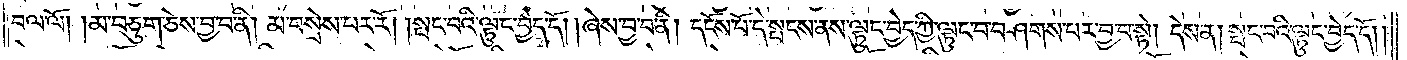བལ་ལོ། །མ་བཅུག་ཅེས་བྱ་བ་ནི། མ་བསྲེས་པར་རོ། །སྤང་བའི་ལྟུང་བྱེད་དོ། །ཞེས་བྱ་བ་ནི། དངོས་པོ་དེ་སྤངས་ནས་ལྟུང་བྱེད་ཀྱི་ལྟུང་བ་བཤགས་པར་བྱ་བ་སྟེ། དེས་ན། སྤང་བའི་ལྟུང་བྱེད་དོ། །
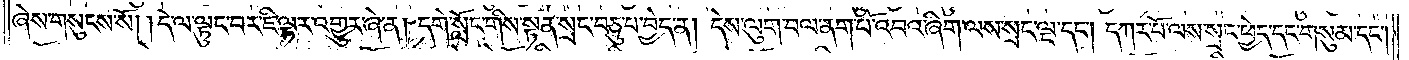ཞེས་གསུངས་སོ། །དེ་ལ་ལྟུང་བར་ཇི་ལྟར་འགྱུར་ཞེ་ན། དགེ་སློང་གིས་སྟན་སྲང་བཅུ་པ་བྱེད་ན། དེས་ལུག་བལ་ནག་པོ་འབའ་ཞིག་ལས་སྲང་ལྔ་དང༌། དཀར་པོ་ལས་སྲང་ཕྱེད་དང་གསུམ་དང༌།
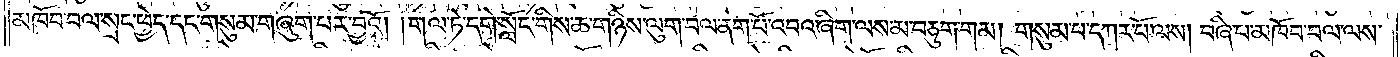མཁོ་བ་བལ་སྲང་ཕྱེད་དང་གསུམ་གཞུག་པར་བྱའོ། །གལ་ཏེ་དགེ་སློང་གིས་ཆ་གཉིས་ལུག་བལ་ནག་པོ་འབའ་ཞིག་ལས་མ་བཅུག་གམ། གསུམ་པ་དཀར་པོ་ལས། བཞི་པ་མཁོ་བ་བལ་ལས་
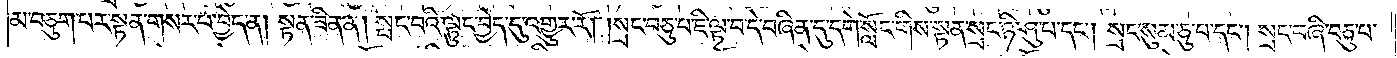མ་བཅུག་པར་སྟན་གསར་པ་བྱེད་ན། སྟན་ཟིན་ན། སྤང་བའི་ལྟུང་བྱེད་དུ་འགྱུར་རོ། །སྲང་བཅུ་པ་ཇི་ལྟ་བ་དེ་བཞིན་དུ་དགེ་སློང་གིས་སྟན་སྲང་ཉི་ཤུ་པ་དང༌། སྲང་སུམ་ཅུ་པ་དང༌། སྲང་བཞི་བཅུ་པ་
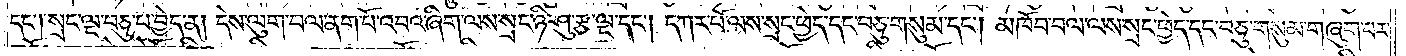དང༌། སྲང་ལྔ་བཅུ་པ་བྱེད་ན། དེས་ལུག་བལ་ནག་པོ་འབའ་ཞིག་ལས་སྲང་ཉི་ཤུ་རྩ་ལྔ་དང༌། དཀར་པོ་ལས་སྲང་ཕྱེད་དང་བཅུ་གསུམ་དང༌། མཁོ་བ་བལ་ལས་སྲང་ཕྱེད་དང་བཅུ་གསུམ་གཞུག་པར་
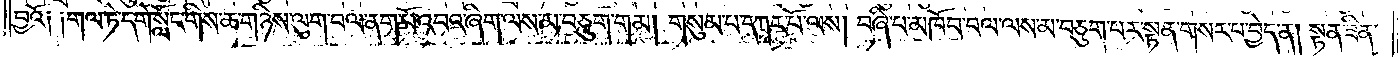བྱའོ༑ ༑གལ་ཏེ་དགེ་སློང་གིས་ཆ་གཉིས་ལུག་བལ་ནག་པོ་འབའ་ཞིག་ལས་མ་བཅུག་གམ། གསུམ་པ་དཀར་པོ་ལས། བཞི་པ་མཁོ་བ་བལ་ལས་མ་བཅུག་པར་སྟན་གསར་པ་བྱེད་ན། སྟན་ཟིན་
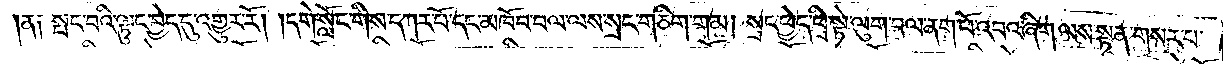ན༑ སྤང་བའི་ལྟུང་བྱེད་དུ་འགྱུར་རོ། །དགེ་སློང་གིས་དཀར་པོ་དང་མཁོ་བ་བལ་ལས་སྲང་གཅིག་གམ། སྲང་བྱེད་ཕྲི་སྟེ་ལུག་བལ་ནག་པོ་འབའ་ཞིག་ལས་སྟན་གསར་པ་
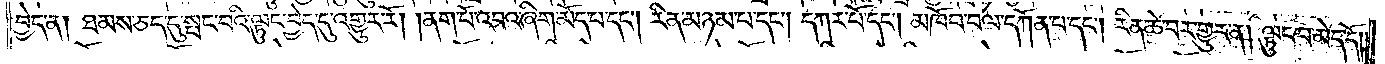བྱེད་ན། ཐམས་ཅད་དུ་སྤང་བའི་ལྟུང་བྱེད་དུ་འགྱུར་རོ། །ནག་པོ་འབའ་ཞིག་མོད་པ་དང༌། རིན་མཉམ་པ་དང༌། དཀར་པོ་དང༌། མཁོ་བ་བལ་དཀོན་པ་དང༌། རིན་ཆེ་བར་གྱུར་ན། ལྟུང་བ་མེད་དོ། །
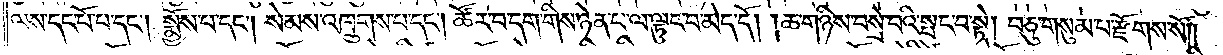ལས་དང་པོ་པ་དང༌། སྨྱོས་པ་དང༌། སེམས་འཁྲུགས་པ་དང༌། ཚོར་བ་དག་གིས་ཉེན་པ་ལ་ལྟུང་བ་མེད་དོ། །ཆ་གཉིས་བསྲེ་བའི་སྤང་བ་སྟེ། བཅུ་གསུམ་པ་རྫོགས་སོ༎
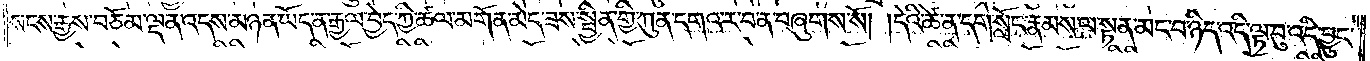སངས་རྒྱས་བཅོམ་ལྡན་འདས་མཉན་ཡོད་ན་རྒྱལ་བྱེད་ཀྱི་ཚལ་མགོན་མེད་ཟས་སྦྱིན་གྱི་ཀུན་དགའ་ར་བ་ན་བཞུགས་སོ། །དེའི་ཚེ་ན་དགེ་སློང་རྣམས་ལ་སྟན་མང་བ་ཉིད་འདི་ལྟ་བུ་འདི་བྱུང་
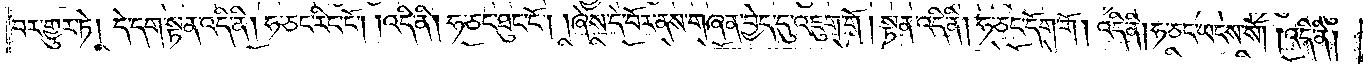བར་གྱུར་ཏེ། དེ་དག་སྟན་འདི་ནི། ཧ་ཅང་རིང་ངོ༌། །འདི་ནི། ཧ་ཅང་ཐུང་ངོ༌། །ཞེས་དེ་བོར་ནས་གཞན་བྱེད་དུ་འཇུག་གོ །སྟན་འདི་ནི། ཧ་ཅང་དོག་གོ། འདི་ནི། ཧ་ཅང་ཡངས་སོ། །འདི་ནི།
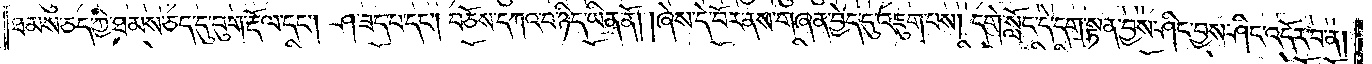ཐམས་ཅད་ཀྱི་ཐམས་ཅད་དུ་བུག་རྡོལ་དང༌། ཤ་ཟད་པ་དང༌། བཅོས་དཀའ་བ་ཉིད་ཡིན་ནོ། །ཞེས་དེ་བོར་ནས་གཞན་བྱེད་དུ་འཇུག་པས། དགེ་སློང་དེ་དག་སྟན་བྱས་ཤིང་བྱས་ཤིང་འདོར་བ་ན།
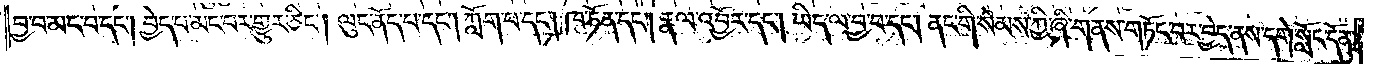བྱ་བ་མང་བ་དང༌། བྱེད་པ་མང་བར་གྱུར་ཅིང༌། ལུང་ནོད་པ་དང༌། ཀློག་པ་དང༌། ཁ་ཏོན་དང༌། རྣལ་འབྱོར་དང༌། ཡིད་ལ་བྱ་བ་དང༌། ནང་གི་སེམས་ཀྱི་ཞི་གནས་གཏོང་བར་བྱེད་ནས་དགེ་སློང་དོན་
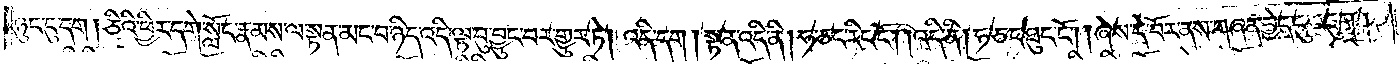ཉུང་ངུ་དག །ཅིའི་ཕྱིར་དགེ་སློང་རྣམས་ལ་སྟན་མང་བ་ཉིད་འདི་ལྟ་བུ་བྱུང་བར་གྱུར་ཏེ། འདི་དག །སྟན་འདི་ནི། ཧ་ཅང་རིང་ངོ༌། །འདི་ནི། ཧ་ཅང་ཐུང་ངོ༌། །ཞེས་དེ་བོར་ནས་གཞན་བྱེད་དུ་འཇུག །
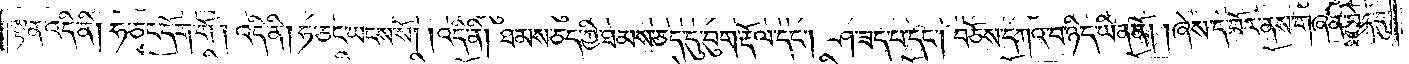སྟན་འདི་ནི། ཧ་ཅང་དོག་གོ། འདི་ནི། ཧ་ཅང་ཡངས་སོ། །འདི་ནི། ཐམས་ཅད་ཀྱི་ཐམས་ཅད་དུ་བུག་རྡོལ་དང༌། ཤ་ཟད་པ་དང༌། བཅོས་དཀའ་བ་ཉིད་ཡིན་ནོ། །ཞེས་དེ་བོར་ནས་གཞན་བྱེད་དུ་
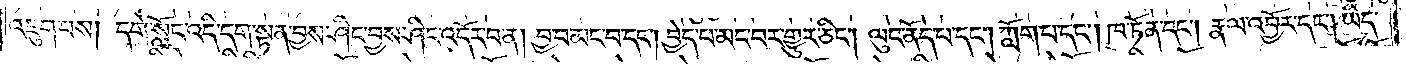འཇུག་པས། དགེ་སློང་འདི་དག་སྟན་བྱས་ཤིང་བྱས་ཤིང་འདོར་བ་ན། བྱ་བ་མང་བ་དང༌། བྱེད་པ་མང་བར་གྱུར་ཅིང༌། ལུང་ནོད་པ་དང༌། ཀློག་པ་དང༌། ཁ་ཏོན་དང༌། རྣལ་འབྱོར་དང༌། ཡིད་
